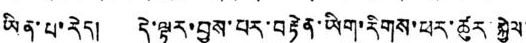ཡིན་པ་རེད། དེ་ལྟར་བྱས་པར་བརྟེན་ཡིག་རིགས་ཕར་ཚུར་སྐྱེལ་
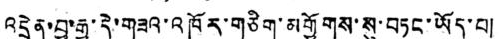འདྲེན་བྱ་རྒྱུ་དེ་གཟའ་འཁོར་གཅིག་མགྱོགས་སུ་བཏང་ཡོད་པ།
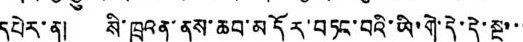དཔེར་ན། སི་ཁྲུའན་ནས་ཆབ་མདོར་བཏང་བའི་ཡི་གེ་དེ་དེ་སྔ་་་
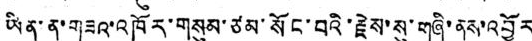ཡིན་ན་གཟའ་འཁོར་གསུམ་ཙམ་སོང་བའི་རྗེས་སུ་གཞི་ནས་འབྱོར
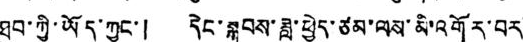ཐུབ་ཀྱི་ཡོད་ཀྱང་། དེང་སྐབས་ཟླ་ཕྱེད་ཙམ་ལས་མི་འགོར་བར་
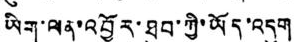ཡིག་ལན་འབྱོར་ཐུབ་ཀྱི་ཡོད་འདུག
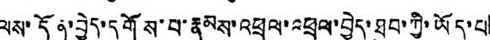ལས་དོན་བྱེད་དགོས་པ་རྣམས་འཕྲལ་འཕྲལ་བྱེད་ཐུབ་ཀྱི་ཡོད་པ་
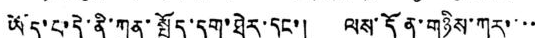ཡོད་པ་དེ་ནི་ཀུན་སྤྱོད་དག་ཐེར་དང་། ལས་དོན་གཉིས་ཀར་་་་
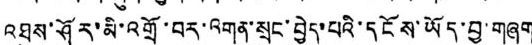འཐུས་ཤོར་མི་འགྲོ་བར་འགན་སྲུང་བྱེད་པའི་དངོས་ཡོད་བྱ་གཞག
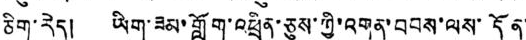ཅིག་རེད། ཡིག་ཟམ་གློག་འཕྲིན་ཅུས་ཀྱི་འགན་བབས་ལས་དོན་
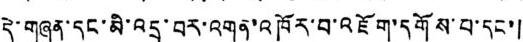དེ་གཞན་དང་མི་འདྲ་བར་འགན་འཁོར་བ་འཇོག་དགོས་པ་དང་།
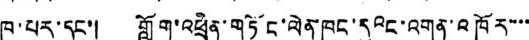ཁ་པར་དང་། གློག་འཕྲིན་གཏོང་ལེན་ཁང་དུའང་འགན་འཁོར་་་་
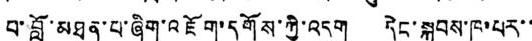བ་བློ་མཐུན་པ་ཞིག་འཇོག་འཇོག་དགོས་ཀྱི་འདུག དེང་སྐབས་ཁ་པར་་
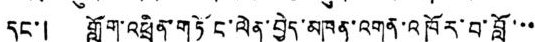དང་། གློག་འཕྲིན་གཏོང་ལེན་བྱེད་མཁན་འགན་འཁོར་བ་བློ་་་
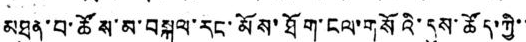མཐུན་བ་ཚོས་མ་བསྐུལ་རང་མོས་ཐོག་ངལ་གསོའི་དུས་ཚོད་ཀྱི་་
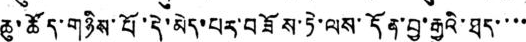ཆུ་ཚོད་གཉིས་པོ་དེ་མེད་པར་བཟོས་ཏེ་ལས་དོན་བྱ་རྒྱུའི་ཐད་་་་
